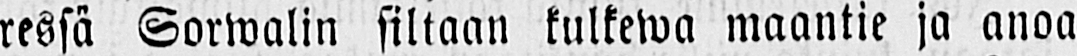lessä Sorwalin siltaan kulkewa maantie ja anoa
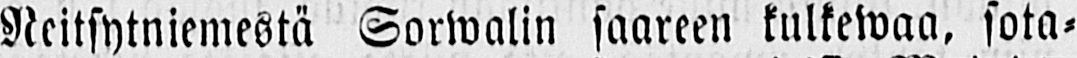Neitsytniemestä Sorwalin saareen kulkewaa, sota-
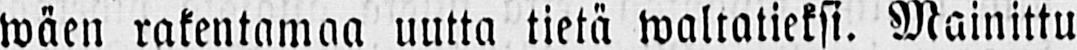wäen rakentamaa uutta tietä waltatieksi. Mainittu
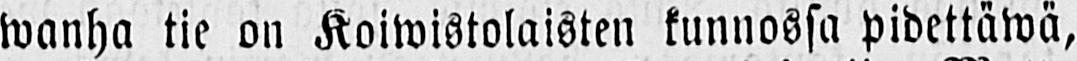wanha tie on Koiwistolaisten kunnossa pidettäwä,
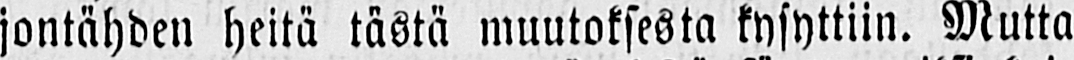jontähden heitä tästä muutoksesta kysyttiin. Mutta
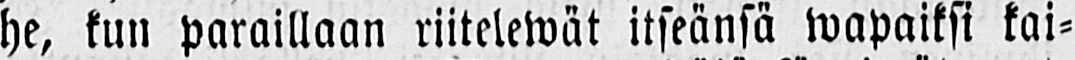he, kun paraillaan riitelewät itseänsä wapaiksi kai-
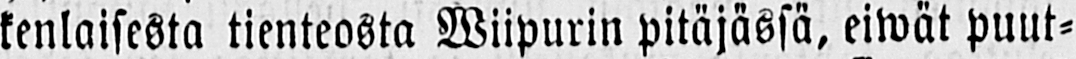kenlaisesta tienteosta Wiipurin pitäjässä, eiwät puut-
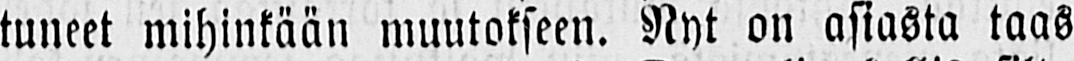tuneet mihinkään muutokseen. Nyt on asiasta taas
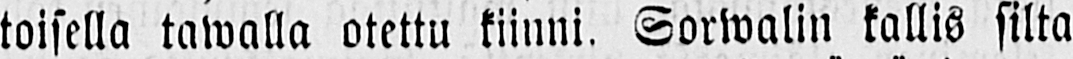toisella tawalla otettu kiinni. Sorwalin kallis silta
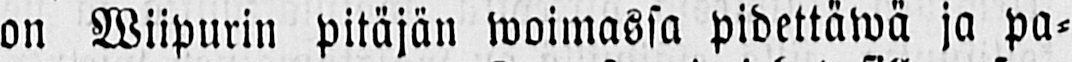on Wiipurin pitäjän woimassa pidettäwä ja pa-
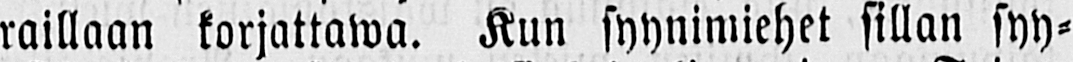raillaan korjattawa. Kun syynimiehet sillan syy-
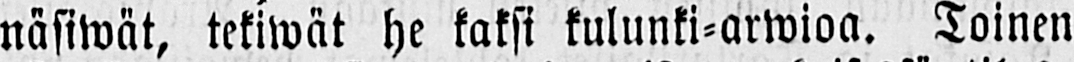näsiwät, tekiwät he kaksi kulunki-arwioa. Toinen
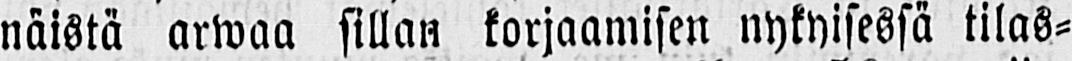näistä arwaa sillan korjaamisen nykyisessä tilas-
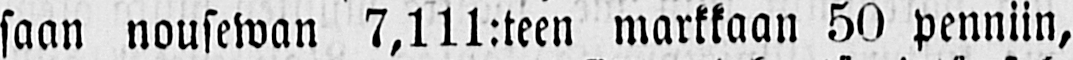saan nousewan 7,111:teen markkaan 50 penniin,
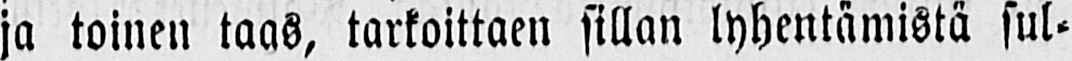ja toinen taas, tarkoittaen sillan lyhentämistä sul-
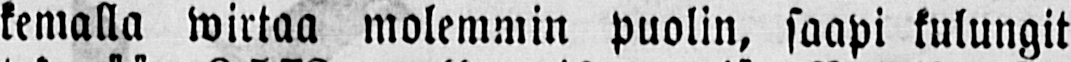kemalla wirkaa molemmin puolin, saapi kulungit
